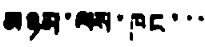མཉམ་ལས་ཁང་་་
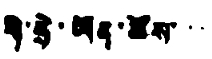གི་ཧྲེ་ཡོན་ཚོས་་
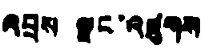འབྲས ལྗང་འཛུགས་
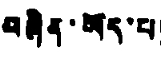བཞིན་ཡོད་པ།
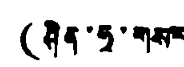(ཤིན་ཧྭ་གསར
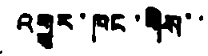འགྱུར་ཁང་གིས་་་
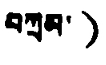བཀྲམ་)
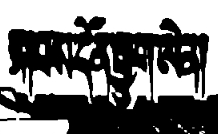སྐབས་དོན་ཕྱུག་ཨེན།
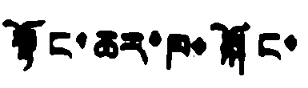སྟོང་ཆར་ཁ་སྐོང་
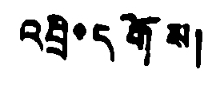འབྲི་དགོས།
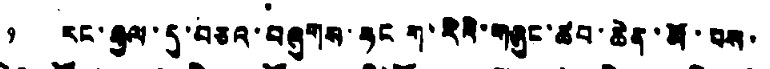༡ རང་རྒྱལ་དུ་བཅའ་བཞུགས་ཧང་ག་རིའི་གཞུང་ཚབ་ཆེན་མོ་བས་
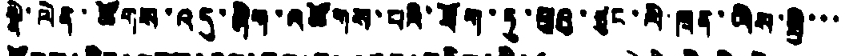སྣེ་ལེན་ཚོགས་འདུ་ཞིག་འཚོགས་པའི་ཐོག་ཏུ་ཕུའུ་ཙུང་ལི་ཁྲན་ཡིས་སྤྱི་་་
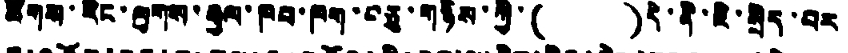ཚོགས་རིང་ལུགས་རྒྱལ་ཁབ་ཁག་བཅུ་གཉིས་ཀྱི་( )དེ་ནི་ཇི་སྲིད་བར
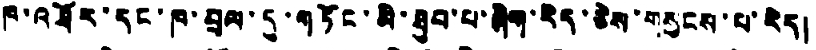ཁ་འཐོར་དང་ཁ་བྲལ་དུ་གཏོང་མི་ཐུབ་པ་ཞིག་རེད་ཅེས་གསུངས་པ་རེད།
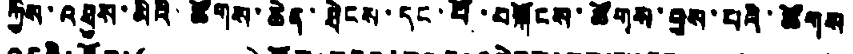ཀྱིས་འཐུས་མིའི་ཚོགས་ཆེན་ཐེངས་དང་པོ་བསྐོངས་ཚོགས་བྱས་པའི་ཚོགས
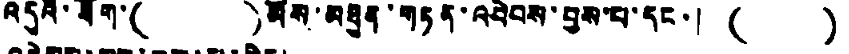འདུའི་ཐོག་( )མོས་མཐུན་གཏན་འབེབས་བྱས་པ་དང་། ( )
